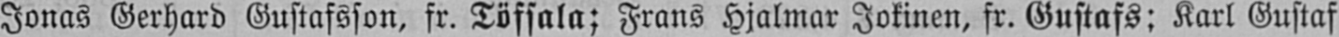Jonas Gerhard Gustafsson, fr. Töfsala; Frans Hjalmar Jokinen, fr. Gustafs; Karl Gustaf
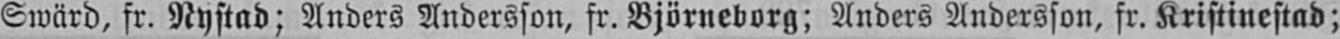Swärd, fr. Nystad; Anders Andersson, fr. Björneborg; Anders Andersson, fr. Kristinestad;
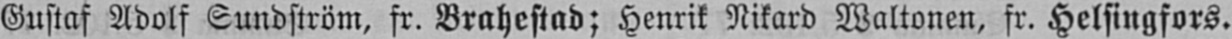Gustaf Adolf Sundström, fr. Brahestad; Henrik Rikard Waltonen, fr. Helsingfors.
